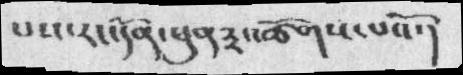པས་རང་དོན་ཕུན་༣་ཚོགས་པའོ་།
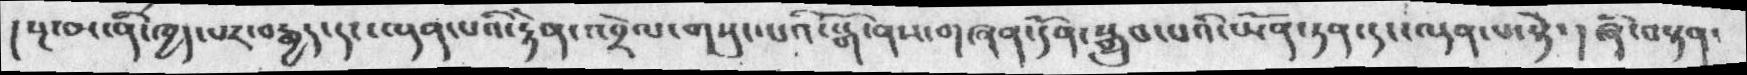། སྔ་མ་ནི་ཁྱད་པར་བརྒྱད་དང་ལྡན་པའི་རྟེན་འབྲེལ་གསུང་པའི་སྒོ་ནས་གཞན་དོན་སྒྲུབ་པའི་ཡོན་ཏན་དང་ལྡན་པ་སྟེ་  ། ཞི་བསྟན་
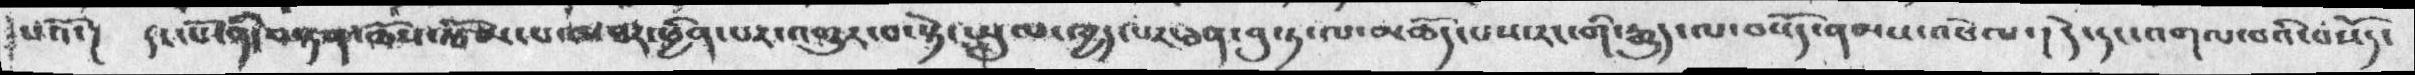པའོ་།  དང་པོ་ནི་བསྟན་ཆོས་རྩོམ་པ་མཐར་ཕྱིན་པར་འགྱུར་བ་སྟེ་སྤྲུལ་ཁྱད་པར་ཅན་བུ་ཏ་ལ་མཆོད་པས་རང་གི་རྒྱུད་ལ་བསོད་ནམས་འཕེལ་། དེ་དང་འགལ་བའི་བསོད་
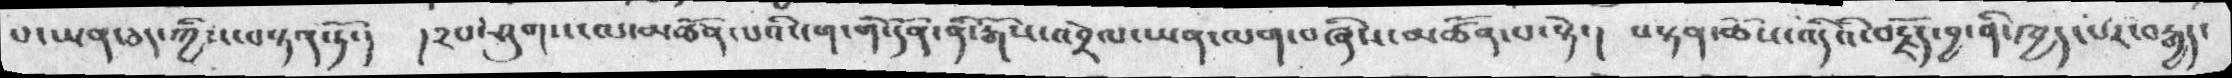པ་ཡན་ཅད་ཀྱིས་བསྟན་ཏོ་།   །༢པ་ཤུགས་ལ་མཚོན་པའི་ངག་གི་དོན་ནི་རྒོས་འབྲེལ་ཡན་ལག་བཞིས་མཚོན་པ་སྟེ་།  བསྟན་ཆོས་འདིའི་བརྗོད་བྱ་ནི་ཁྱད་པར་བརྒྱད་
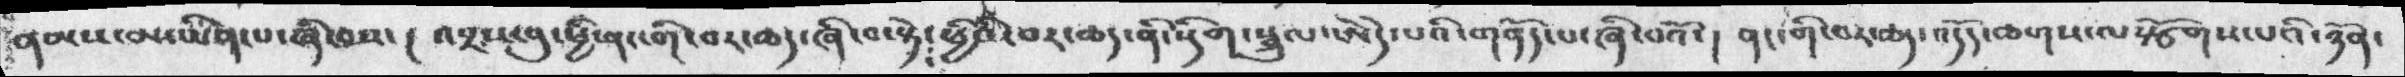ནམས་མ་ཡིན་པ་ཞི་བས་ ། འབྲས་བུ་ཕྱི་ནང་གི་བར་ཆད་ཞི་བ་སྟེ་ཕྱིའི་བར་ཆད་ནི་སྡིག་སྦྲུལ་ཨེདེ་པའི་གནོད་པ་ཞི་བའོ་ ། ནང་གི་བར་ཆད་འདོད་ཆགས་ལསྩོགས་པའི་ཉོན་
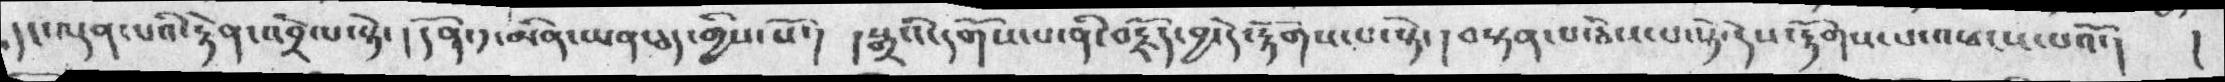དང་ལྡན་པའི་རྟེན་འབྲེལ་སྟེ་ དོན་དུ་མིན་ཡན་ཅད་གྱིས་སོ་། །སྒྲའི་དགོས་པ་ནི་བརྗོད་བྱ་དེ་རྟོགས་པ་སྟེ། བསྟན་པ་རྦིས་པ་སྟེ་དེས་རྟོགས་པ་འཕངས་པའོ་།
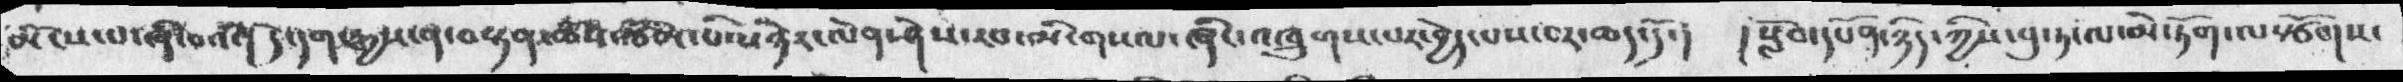རྨོངས་པ་ཞིབའོ། དེ་དག་རྒྱས་ན་བསྟན་ཆོས་ཆེན་པོས་ཉེར་ལེན་ཤེས་རབ་མི་གསལ་ཞིང་འཁྲུགས་པར་བྱེད་པར་བར་ཆད་དོ་། །སློབ་དཔོན་ཉིད་ཀྱིས་བུ་ཏ་ལ་མེ་ཏོག་ལསྩོགས་
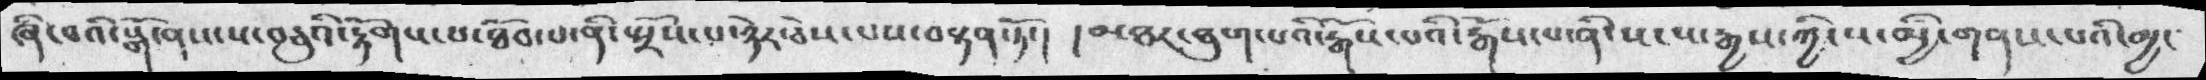ཞི་བའི་སྒོ་ནས་ས་བཅུའི་རྟོགས་པ་ཐོབ་པ་ནི་སྤྲོས་པ་ཉེར་ཅེས་པས་བསྟན་ཏོ་།  ། མཐར་ཐུག་པའི་རྒོས་པའི་རྒོས་པ་ནི་སངས་རྒྱས་ཀྱི་ས་མྱི་གནང་པའི་མྱང
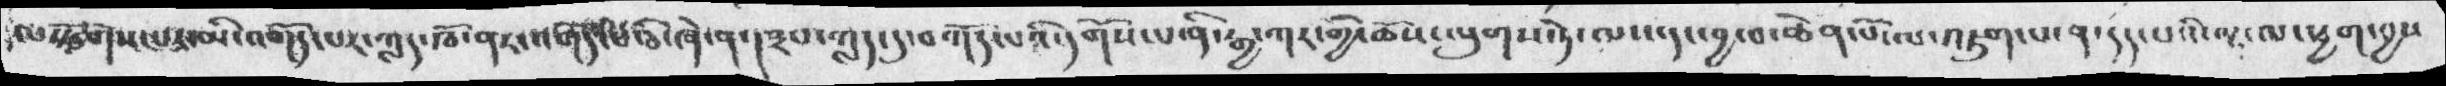ལསྩོགས་པར་མི་འགོད་པར་ཀླད་ཁོ་ནར་འགོད་པ་ཅི་ཞེ་ན་།  ཟབ་ཀླད་དུ་བཀོད་པའི་དགོས་པ་ནི་རྒྱ་ཀར་གྱི་ཆོས་ལུགས་ཏེ་ལས་དང་བྱ་བ་ཆེན་པོ་ལ་འཇུག་པ་ན་དད་པའི་ལྷ་ལ་ཕྱག་བྱས
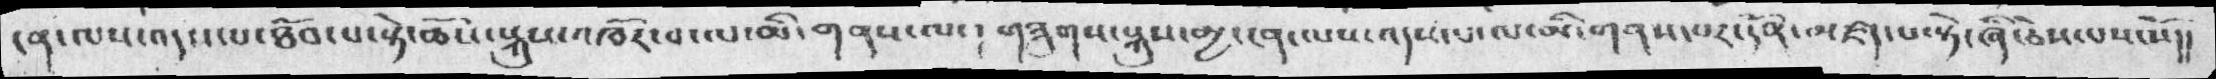ངན་ལས་འདས་པ་ཐོབ་པ་སྟེ་ཆོས་སྐུས་འཁོར་བ་ལ་མི་གནས་ལ་།  གཟུགས་སྐུས་མྱང་ངན་ལས་འདས་པ་ལ་མི་གནས་པར་དོན་མཛད་པ་སྟེ་ཞི་ཅེས་པས་སོ།།
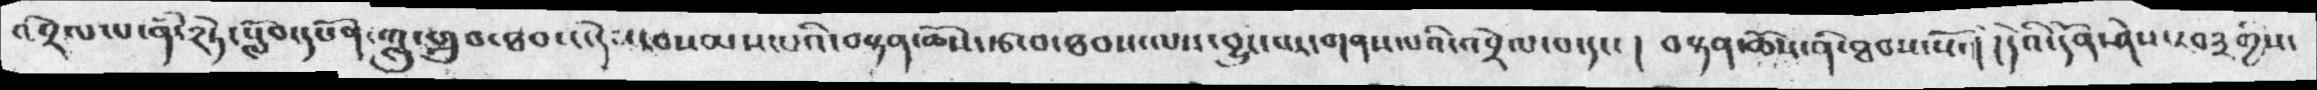འབྲེལ་པ་ནི་༢ཏེ་སློབ་དཔོན་ཀླུ་གྲུབ་ཐབས་དེས་བསམས་པའི་བསྟན་ཆོས་རྩ་བ་ཐབས་ལས་བྱུང་བར་གནས་པའི་འབྲེལ་བ་དང་།  བསྟན་ཆོས་ནི་ཐབས་སོ་།  །དེའི་དོན་ཤེས་རབ༣གྱིས་
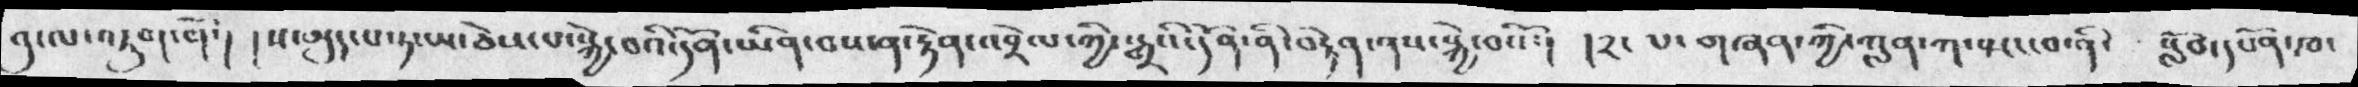བུ་ལ་འཇུག་གོ་།  ས་མུད་པ་ཏ་ཡ་ཅེས་པ་སྐྱེ་བའི་དོན་ཡིན་བས་ན་རྟེན་འབྲེལ་ཀྱི་སྒྲའི་དོན་ནི་བརྟེན་ནས་སྐྱེ་བའོ་།  །༢་ པ་གཞན་ཀྱི་ཀླན་ཀ་སྤང་བ་ནི་  སློབ་དཔོན་ཁ་
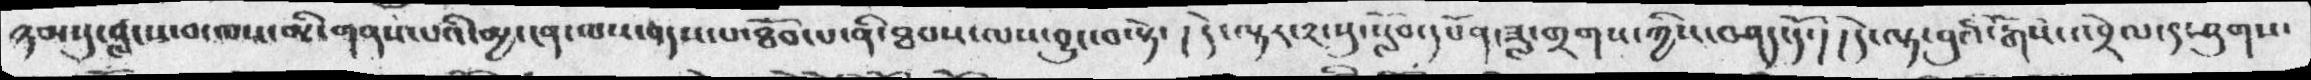ཉམ་སུ་བླངས་བ་ལས་མི་གནས་པའི་མྱ་ངན་ལས་འདས་པ་ཐོབ་པ་ནི་ཐབས་ལས་བྱུང་བ་སྟེ་། དེ་ལྟར་༢་སུ་སློབ་དཔོན་ཟླ་གྲགས་ཀྱིས་བཤད་དོ་། །དེ་ལྟ་བུའི་རྒོསའབྲེལ་དུ་ཤུགས་
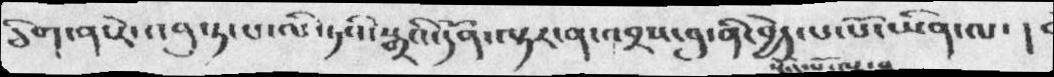ཅིག་ན་རེ་འབུ་ཏ་པ་ལི་ཏའི་སྒྲའི་དོན་ལྟར་ན་འབྲས་བུ་ནི་བྱེད་པ་པོ་ཡིན་ལ་།
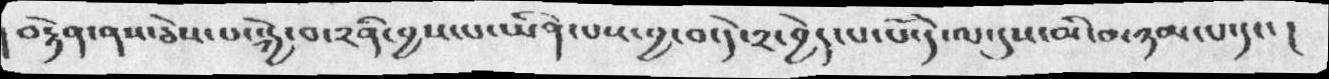བརྟེན་ནས་ཅེས་པ་སྐྱེ་བ་༢ནི་བྱས་པ་ཡིན་པས་བྱ་བ་དེ་༢་བྱེད་པ་པོ་དེ་ལ་དུས་མི་མཉམ་པ་དང་།
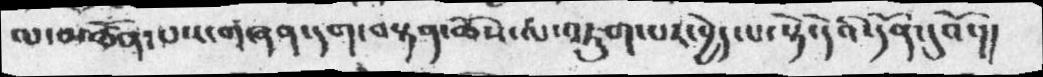ལ་མཚོན་པ་རང་གཞན་དག་བསྟན་ཆོས་ལ་འཇུག་པར་བྱེད་པ་སྟེ་དེའི་དོན་དུའོ་།།
